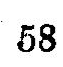58
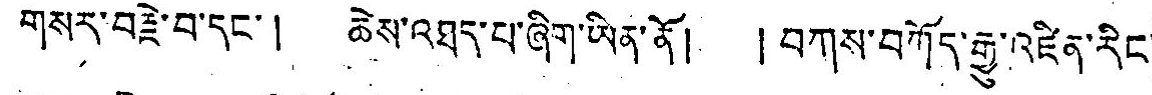གསར་བརྗེ་བ་དང་། ཆེས་འཐད་པ་ཞིག་ཡིན་ནོ། །བཀས་བཀོད་རྒྱུ་འཛིན་རིང་
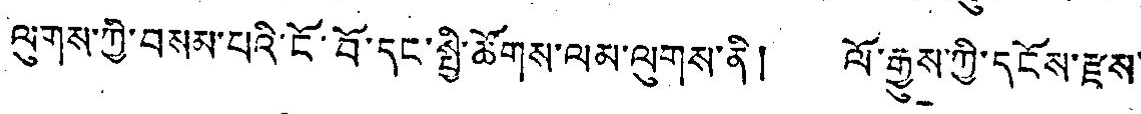ལུགས་ཀྱི་བསམ་པའི་ངོ་བོ་དང་སྤྱི་ཚོགས་ལམ་ལུགས་ནི། ལོ་རྒྱུས་ཀྱི་དངོས་རྫས་
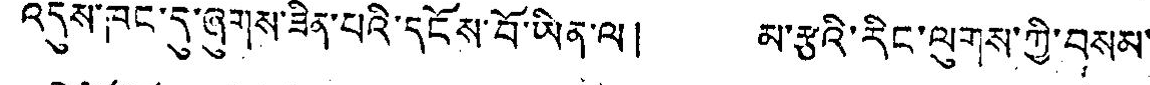འདུས་ཁང་དུ་ཞུགས་ཟིན་པའི་དངོས་བོ་ཡིན་ལ། མ་རྩའི་རིང་ལུགས་ཀྱི་བསམ་
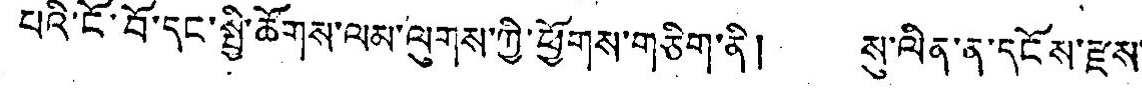པའི་ངོ་བོ་དང་སྤྱི་ཚོགས་ལམ་ལུགས་ཀྱི་ཕྱོགས་གཅིག་ནི། སུ་ལིན་ན་དངོས་རྫས་
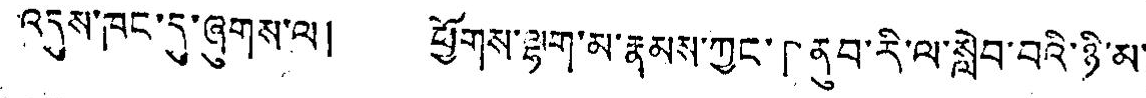འདུས་ཁང་དུ་ཞུགས་ལ། ཕྱོགས་ལྷག་མ་རྣམས་ཀྱང་「ནུབ་རི་ལ་སླེབ་བའི་ཉི་མ་
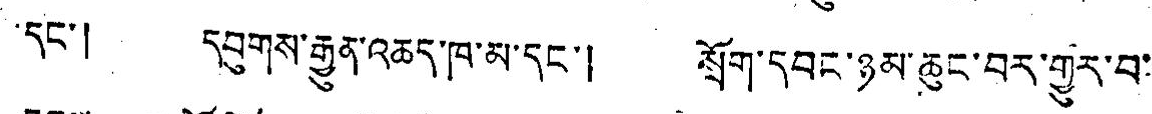དང་། དབུགས་རྒྱུན་འཆད་ཁ་མ་དང་། སྲོག་དབང་ཉམ་ཆུང་བར་གྱུར་བ་
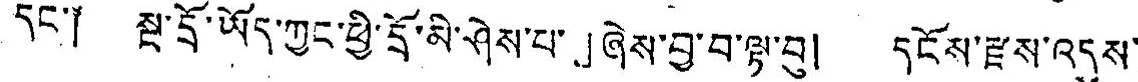དང་༐ སྔ་དྲོ་ཡོད་ཀྱང་ཕྱི་དྲོ་མི་ཤེས་པ་」ཞེས་བྱ་བ་ལྟ་བུ། དངོས་རྫས་འདུས་
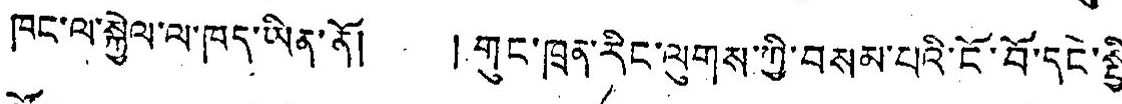ཁང་ལ་སྐྱེལ་ལ་ཁད་ཡིན་ནོ། །གུང་ཁྲན་རིང་ལུགས་ཀྱི་བསམ་པའི་ངོ་བོ་དང་སྤྱི་
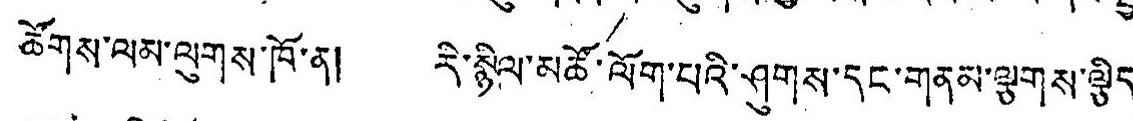ཚོགས་ལམ་ལུགས་ཁོ་ན། རི་སྙིལ་མཚོ་ལོག་པའི་ཤུགས་དང་གནམ་ལྕགས་ལྕིད་
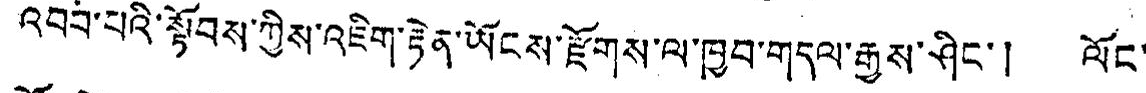འབབ་པའི་སྟོབས་ཀྱིས་འཇིག་རྟེན་ཡོངས་རྫོགས་ལ་ཁྱབ་གདལ་རྒྱས་ཤིང་། ལོང་
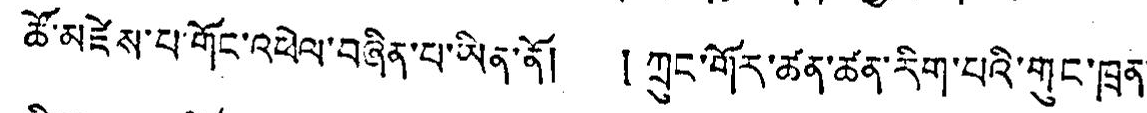ཚོ་མཛེས་པ་གོང་འཕེལ་བཞིན་པ་ཡིན་ནོ། །ཀྲུང་གོར་ཚན་ཚན་རིག་པའི་གུང་ཁྲན་
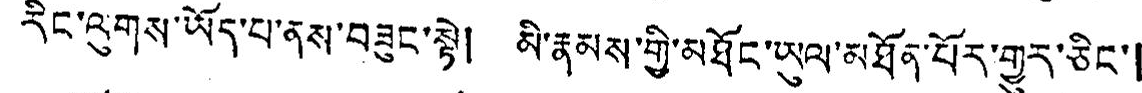རིང་འུགས་ཡོད་པ་ནས་བཟུང་སྟེ། མི་རྣམས་གྱི་མཐོང་ཡུལ་མཐོན་པོར་གྱུར་ཅིང་།
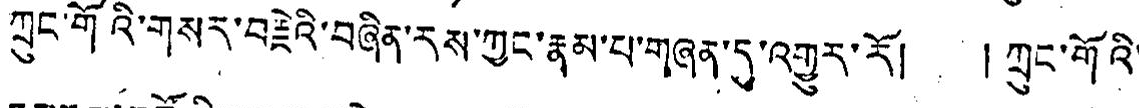ཀྲུང་གོའི་གསར་བརྗེའི་བཞིན་རས་ཀྱང་རྣམ་པ་གཞན་དུ་འགྱུར་རོ། །ཀྲུང་གོའི་
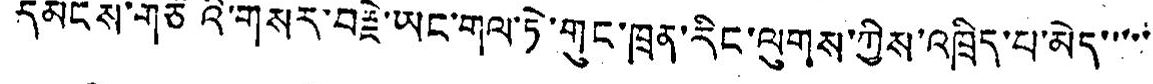དམངས་གཙོའི་གསར་བརྗེ་ཡང་གལ་ཏེ་གུང་ཁྲན་རིང་ལུགས་ཀྱིས་འཁྲིད་པ་མེད་་་་་
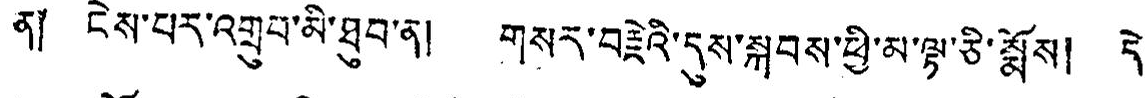ན། ངེས་པར་འགྲུབ་མི་ཐུབ་ན། གསར་བརྗེའི་དུས་སྐབས་ཕྱི་མ་ལྟ་ཅི་སྨོས། དེ་
